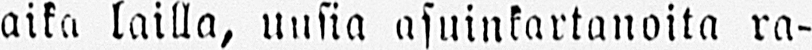aika lailla, uusia asuinkartanoita ra-
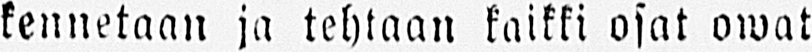kennetaan ja tehtaan kaikki osat owat
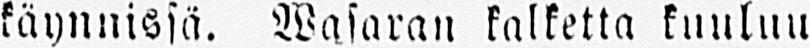käynnissä. Wasaran kalketta kuuluu
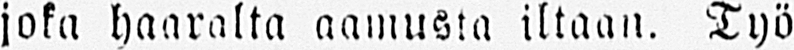joka haaralta aamusta iltaan. Työ-
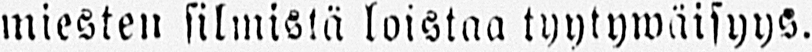miesten silmistä loistaa tyytywäisyys.
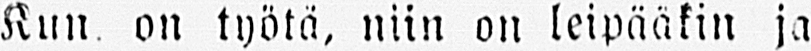Kun on työtä, niin on leipääkin ja
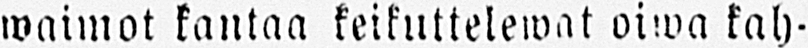waimot kantaa keikuttelewat oiwa kah-
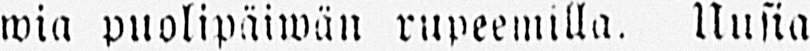wia puolipäiwän rupeemilla. Uusia
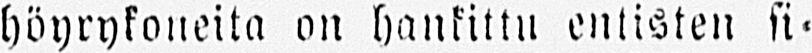höyrykoneita on hankittu entisten si-
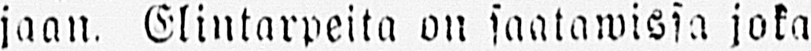jaan. Elintarpeita on saatawissa joka
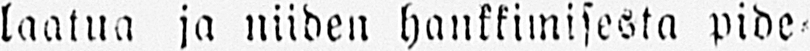laatua ja niiden hankkimisesta pide-
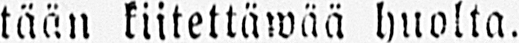tään kiitettäwää huolta.
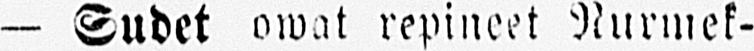— Sudet owat repineet Nurmek-
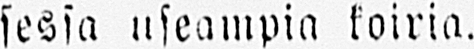sessa useampia koiria.
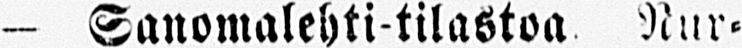- Sanomalehti-tilastoa. Nur-
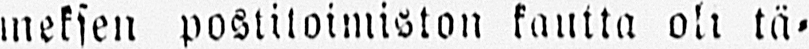meksen postitoimiston kautta oli tä-
